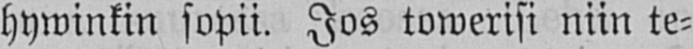hywinkin sopii. Jos towerisi niin te-
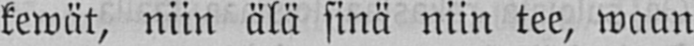kewät, niin älä sinä niin tee, waan
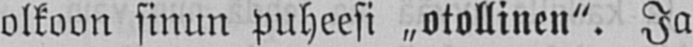olkoon sinun puheesi „otollinen". Ja
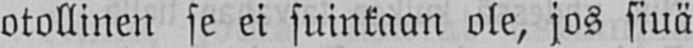otollinen se ei suinkaan ole, jos siuä
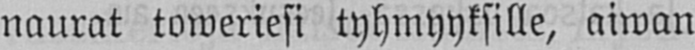naurat toweriesi tyhmyyksille, aiwan
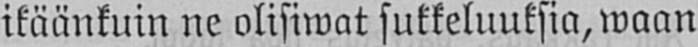ikäänkuin ne olisiwat sukkeluuksia, waan
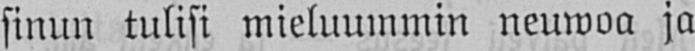sinun tulisi mieluummin neuwoa ja
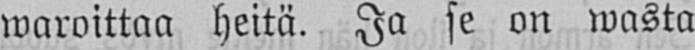waroittaa heitä. Ja se on wasta
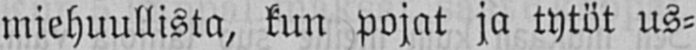miehuullista, kun pojat ja tytöt us-
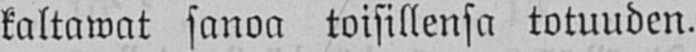kaltawat sanoa toisillensa totuuden.
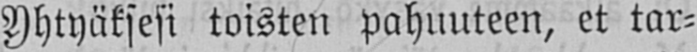Yhtyäksesi toisten pahuuteen, et tar-
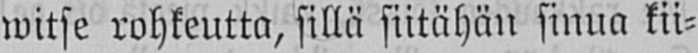witse rohkeutta, sillä siitähän sinua kii-
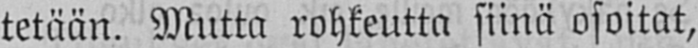tetään. Mutta rohkeutta siinä osoitat,
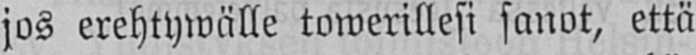jos erehtywälle towerillesi sanot, että
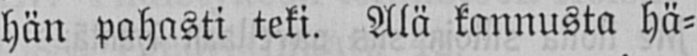hän pahasti teki. Ala kannusta hä-
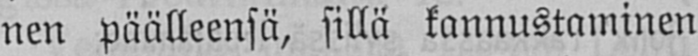nen päälleensä, sillä kannustaminen
